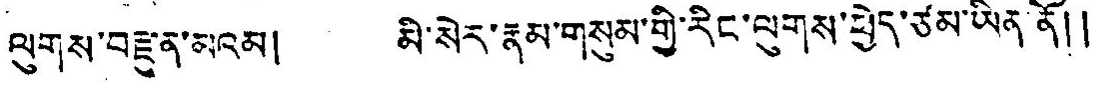ལུགས་བརྫུན་མའམ། མི་སེར་རྣམ་གསུམ་གྱི་རིང་ལུགས་ཕྱེད་ཙམ་ཡིན་ནོ།།
